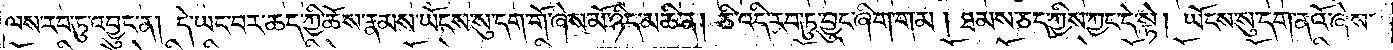ལས་རབ་ཏུ་འབྱུང་ན། དེ་ཡང་བར་ཆད་ཀྱི་ཆོས་རྣམས་ཡོངས་སུ་དག་གོ་ཞེས་མོ་ཉིད་མཆི་ན། ཅི་འདི་རབ་ཏུ་བྱུང་ཞིག་གམ། ཐམས་ཅད་ཀྱིས་ཀྱང་དེ་སྟེ། ཡོངས་སུ་དག་ནའོ་ཞེས་
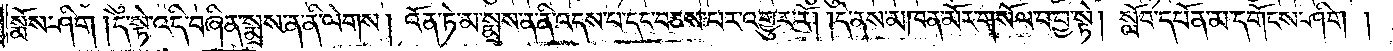སྨོས་ཤིག །དེ་སྟེ་འདི་བཞིན་སྨྲས་ན་ནི་ལེགས། འོན་ཏེ་མ་སྨྲས་ན་ནི་འདས་པ་དང་བཅས་པར་འགྱུར་རོ། །དེ་ནས་མཁན་མོར་གསོལ་བ་བྱ་སྟེ། སློབ་དཔོན་མ་དགོངས་ཤིག །
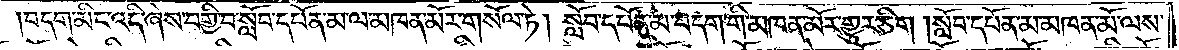བདག་མིང་འདི་ཞེས་བགྱི་བ་སློབ་དཔོན་མ་ལ་མཁན་མོར་གསོལ་ཏེ། སློབ་དཔོན་མ་བདག་གི་མཁན་མོར་གྱུར་ཅིག །སློབ་དཔོན་མ་མཁན་མོ་ལས་
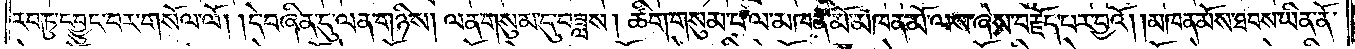རབ་ཏུ་དབྱུང་བར་གསོལ་ལོ། །དེ་བཞིན་དུ་ལན་གཉིས། ལན་གསུམ་དུ་བཟླས། ཚིག་གསུམ་པ་ལ་མཁན་མོ་མཁན་མོ་ལས་ཞེས་བརྗོད་པར་བྱའོ། །མཁན་མོས་ཐབས་ཡིན་ནོ་
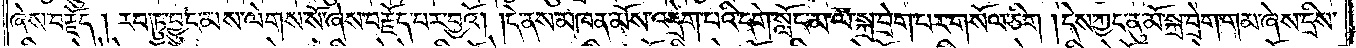ཞེས་བརྗོད། རབ་ཏུ་བྱུང་མས་ལེགས་སོ་ཞེས་བརྗོད་པར་བྱའོ། །དེ་ནས་མཁན་མོས་འདྲེག་པའི་དགེ་སློང་མ་ལ་སྐྲ་བྲེག་པར་གསོལ་ཅིག །དེས་ཀྱང་ནུ་མོ་སྐྲ་བྲེག་གམ་ཞེས་དྲིས་
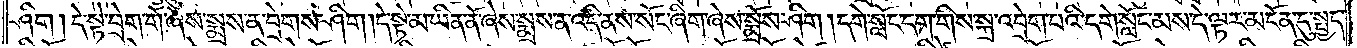ཤིག །དེ་སྟེ་བྲེག་གོ་ཞེས་སྨྲས་ན་བྲེགས་ཤིག །དེ་སྟེ་མ་ཡིན་ནོ་ཞེས་སྨྲས་ན་འདི་ནས་སོང་ཞིག་ཞེས་སྨྲོས་ཤིག །དགེ་སློང་དག་གིས་སྐྲ་འབྲེག་པའི་དགེ་སློང་མས་དེ་ལྟར་མངོན་དུ་སྤྱད་
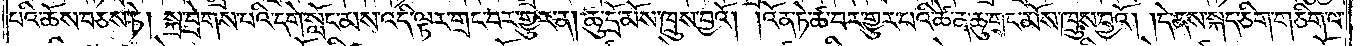པའི་ཆོས་བཅས་ཏེ། སྐྲ་བྲེགས་པའི་དགེ་སློང་མས་འདི་ལྟར་གྲང་བར་གྱུར་ན། ཆུ་དྲོ་མོས་ཁྲུས་བྱའོ། །འོན་ཏེ་ཙ་བར་གྱུར་པའི་ཚེ་ན་ཆུ་གྲང་མོས་ཁྲུས་བྱའོ། །དེ་ནས་སྐད་ཅིག་གཅིག་ལ་
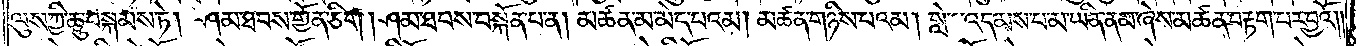ལུས་ཀྱི་ཆུ་བསྐམས་ཏེ། ཤམ་ཐབས་གྱོན་ཅིག །ཤམ་ཐབས་བསྐོན་པ་ན། མཚན་མ་མེད་པའམ། མཚན་གཉིས་པའམ། སླེ་འདམས་པ་མ་ཡིན་ནམ་ཞེས་མཚན་བརྟག་པར་བྱའོ༎
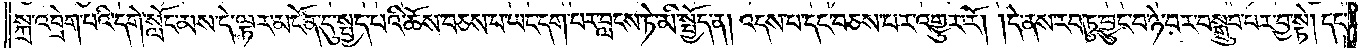སྐྲ་འབྲེག་པའི་དགེ་སློང་མས་དེ་ལྟར་མངོན་དུ་སྤྱད་པའི་ཆོས་བཅས་པ་ཡང་དག་པར་བླངས་ཏེ་མི་སྤྱོད་ན། འདས་པ་དང་བཅས་པར་འགྱུར་རོ། །དེ་ནས་རབ་ཏུ་བྱུང་བ་ཉེ་བར་བསྒྲུབ་པར་བྱ་སྟེ། དང་
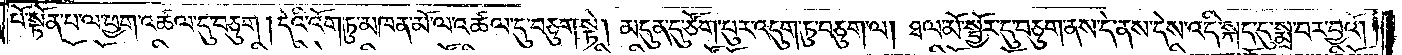པོ་སྟོན་པ་ལ་ཕྱག་འཚལ་དུ་བཅུག །དེའི་འོག་ཏུ་མཁན་མོ་ལ་འཚལ་དུ་བཅུག་སྟེ། མདུན་དུ་ཙོག་པུར་འདུག་ཏུ་བཅུག་ལ། ཐལ་མོ་སྦྱོར་དུ་བཅུག་ནས་དེ་ནས་དེས་འདི་སྐད་དུ་སྨྲ་བར་བྱའོ། །
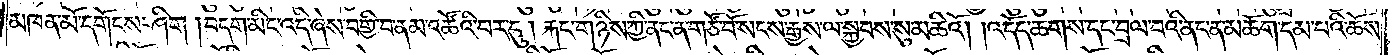མཁན་མོ་དགོངས་ཤིག །བདག་མིང་འདི་ཞེས་བགྱི་བ་ནམ་འཚོའི་བར་དུ། རྐང་གཉིས་ཀྱི་ནང་ན་གཙོ་བོ་སངས་རྒྱས་ལ་སྐྱབས་སུ་མཆིའོ། །འདོད་ཆགས་དང་བྲལ་བའི་ནང་ན་མཆོག་དམ་པའི་ཆོས་
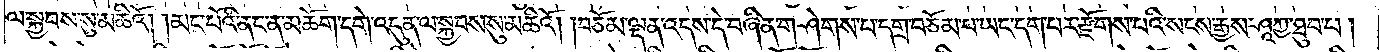ལ་སྐྱབས་སུ་མཆིའོ། །མང་པོའི་ནང་ན་མཆོག་དགེ་འདུན་ལ་སྐྱབས་སུ་མཆིའོ། །བཅོམ་ལྡན་འདས་དེ་བཞིན་གཤེགས་པ་དགྲ་བཅོམ་པ་ཡང་དག་པར་རྫོགས་པའི་སངས་རྒྱས་ཤཱཀྱ་ཐུབ་པ།
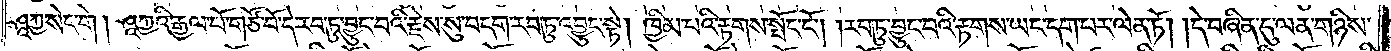ཤཱཀྱ་སེང་གེ ། ཤཱཀྱའི་རྒྱལ་པོ་གཙོ་བོ་དེ་རབ་ཏུ་བྱུང་བའི་རྗེས་སུ་བདག་རབ་ཏུ་འབྱུང་སྟེ། ཁྱིམ་པའི་རྟགས་སྤོང་ངོ༌། །རབ་ཏུ་བྱུང་བའི་རྟགས་ཡང་དག་པར་ལེན་ཏོ། །དེ་བཞིན་དུ་ལན་གཉིས་
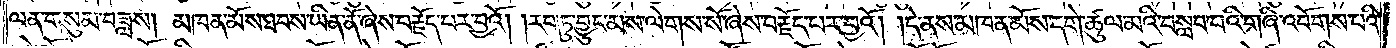ལན་གསུམ་བཟླས། མཁན་མོས་ཐབས་ཡིན་ནོ་ཞེས་བརྗོད་པར་བྱའོ། །རབ་ཏུ་བྱུང་མས་ལེགས་སོ་ཞེས་བརྗོད་པར་བྱའོ། །དེ་ནས་མཁན་མོས་དགེ་ཚུལ་མའི་བསླབ་པའི་གཞི་འབོགས་པའི་
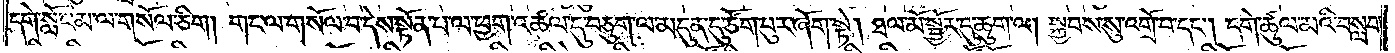དགེ་སློང་མ་ལ་གསོལ་ཅིག། གང་ལ་གསོལ་བ་དེས་སྟོན་པ་ལ་ཕྱག་འཚལ་དུ་བཅུག་ལ་མདུན་དུ་ཙོག་པུར་ཞོག་སྟེ། ཐལ་མོ་སྦྱོར་དུ་ཆུག་ལ། སྐྱབས་སུ་འགྲོ་བ་དང༌། དགེ་ཚུལ་མའི་བསླབ་
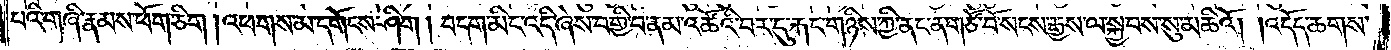པའི་གཞི་རྣམས་ཕོག་ཅིག །འཕགས་མ་དགོངས་ཤིག །བདག་མིང་འདི་ཞེས་བགྱི་བ་ནམ་འཚོའི་བར་དུ་རྐང་གཉིས་ཀྱི་ནང་ན་གཙོ་བོ་སངས་རྒྱས་ལ་སྐྱབས་སུ་མཆིའོ། །འདོད་ཆགས་
